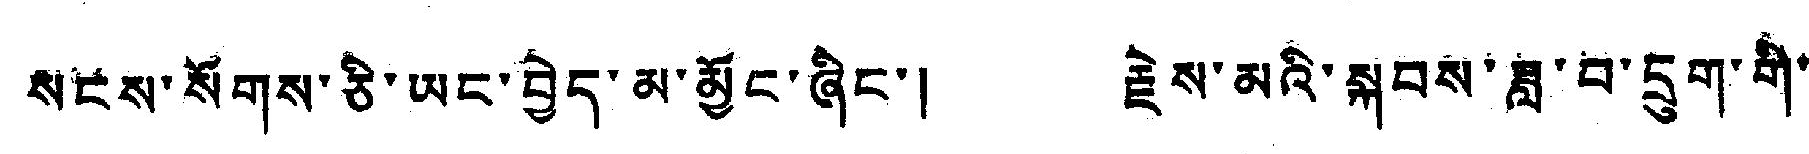སངས་སོགས་ཅི་ཡང་བྱེད་མ་མྱོང་ཞིང་། རྗེས་མའི་སྐབས་ཟླ་བ་དྲུག་གི་
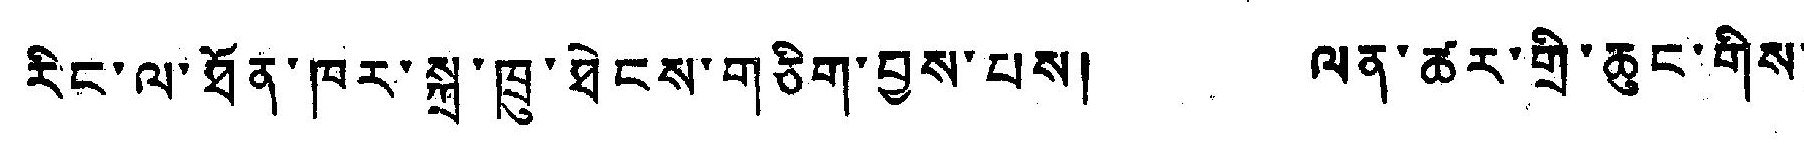རིང་ལ་ཐོན་ཁར་སྐྲ་ཁྲུ་ཐེངས་གཅིག་བྱས་པས། ལན་ཚར་གྱི་ཆུང་གིས་
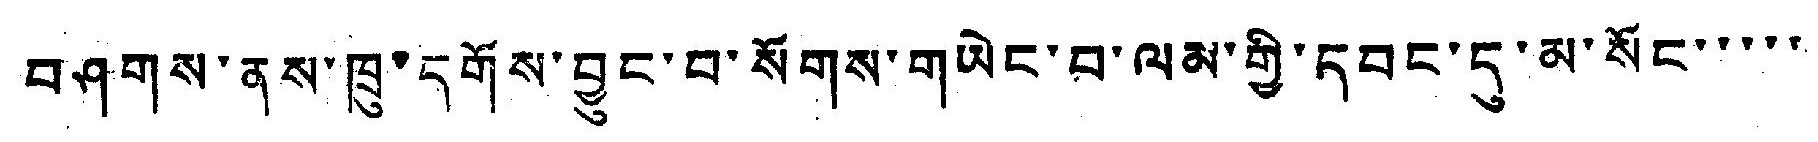བཤགས་ནས་ཁྲུ་དགོས་བྱུང་བ་སོགས་གཡེང་བ་ལམ་གྱི་དབང་དུ་མ་སོང་་་་་
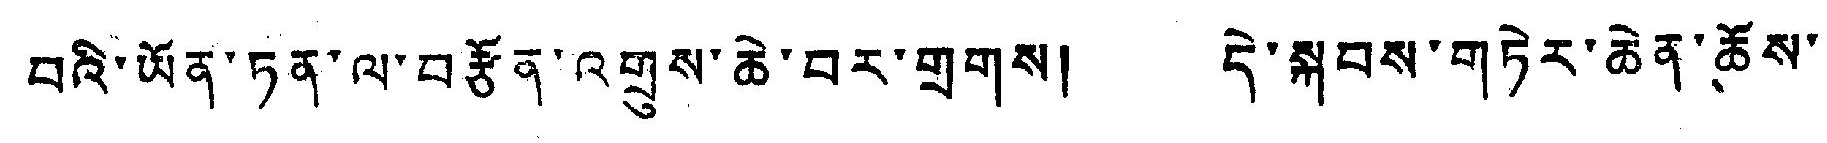བའི་ཡོན་ཏན་ལ་བརྩོན་འགྲུས་ཆེ་བར་གྲགས། དེ་སྐབས་གཏེར་ཆེན་ཆོས་
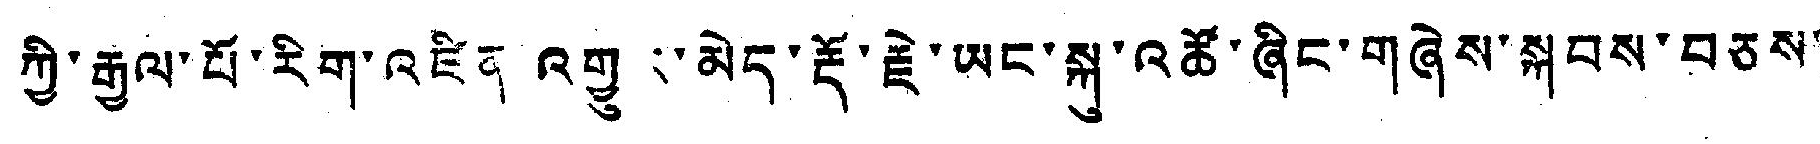ཀྱི་རྒྱལ་པོ་རིག་འཛིན་འགྱུར་མེད་རྡོ་རྗེ་ཡང་སྐུ་འཚོ་ཞིང་གཞེས་སྐབས་བཅས་
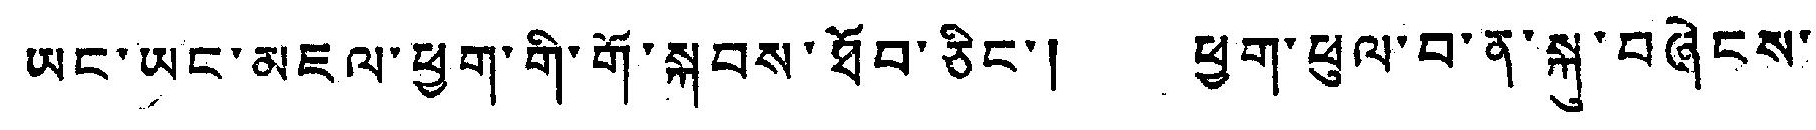ཡང་ཡང་མཇལ་ཕྱག་གི་གོ་སྐབས་ཐོབ་ཅིང་། ཕྱག་ཕུལ་བ་ན་སྐུ་བཞེངས་
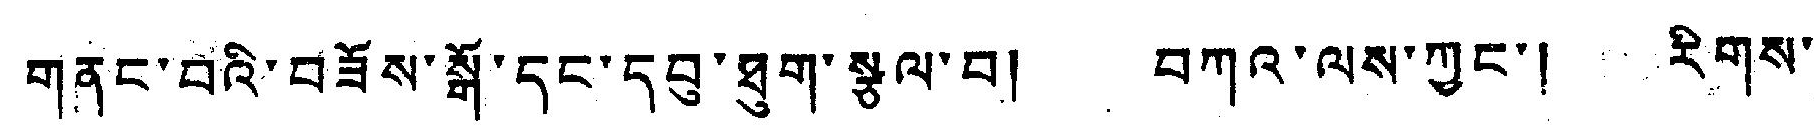གནང་བའི་བཟོས་སྒོ་དང་དབུ་ཐུག་སྩལ་བ། བཀའ་ལས་ཀྱང་། རིགས་
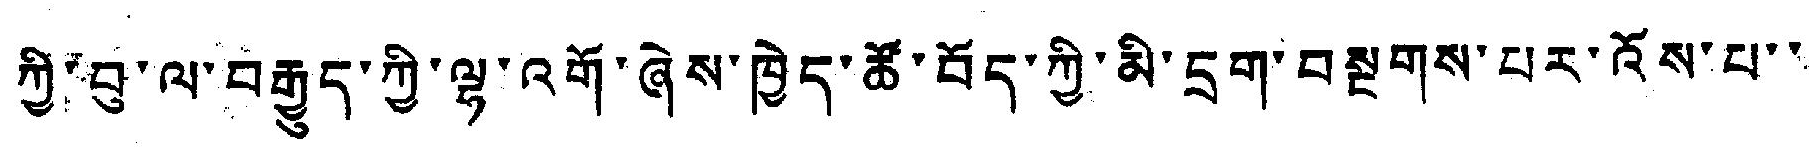ཀྱི་བུ་ལ་བརྒྱུད་ཀྱི་ལྷ་འགོ་ཞེས་ཁྱེད་ཚོ་བོད་ཀྱི་མི་དྲག་བསྔགས་པར་འོས་པ་་
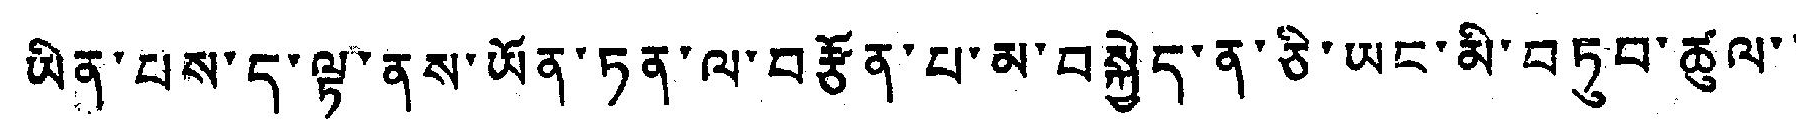ཡིན་པས་ད་ལྟ་ནས་ཡོན་ཏན་ལ་བརྩོན་པ་མ་བསྐྱེད་ན་ཅི་ཡང་མི་བཏུབ་ཚུལ་་
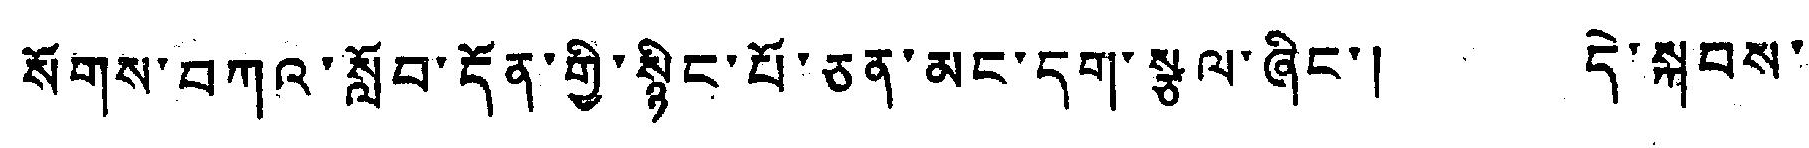སོགས་བཀའ་སློབ་དོན་གྱི་སྙིང་པོ་ཅན་མང་དག་སྩལ་ཞིང་། དེ་སྐབས་་
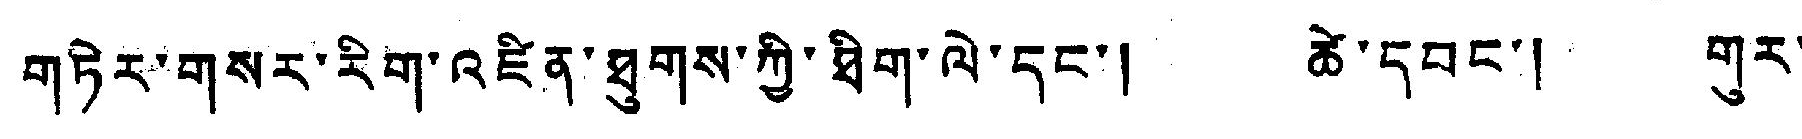གཏིར་གསར་རིག་འཛིན་ཐུགས་ཀྱི་ཐིག་ལེ་དང་། ཚེ་དབང་། གུར་
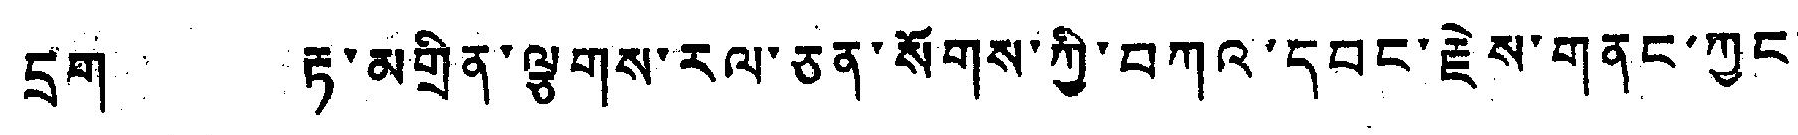དྲག རྟ་མགྲིན་ལྕགས་རལ་ཅན་སོགས་ཀྱི་བཀའ་དབང་རྗེས་གནང་ཀྱང་
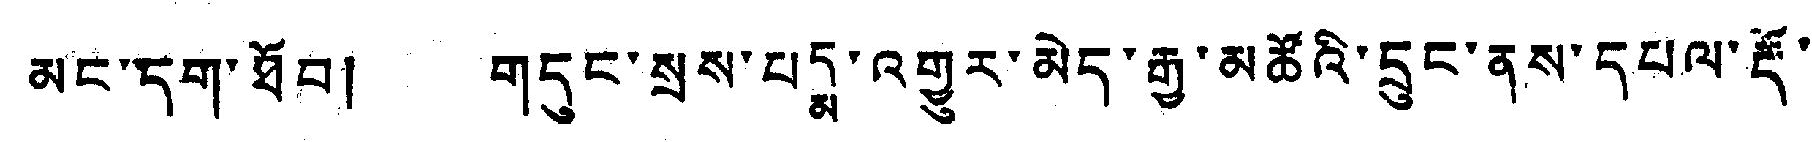མང་དག་ཐོབ། གདུང་སྲས་པདྨ་འགྱུར་མེད་རྒྱུ་མཚོའི་དྲུང་ནས་དཔལ་རྡོ་
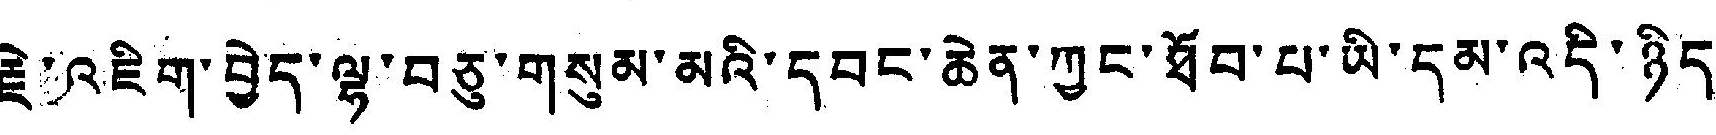རྗེ་འཇིག་བྱེད་ལྷ་བཅུ་གསུམ་མའི་དབང་ཆེན་ཀྱང་ཐོབ་པ་ཡི་དམ་འདི་ཉིད་་
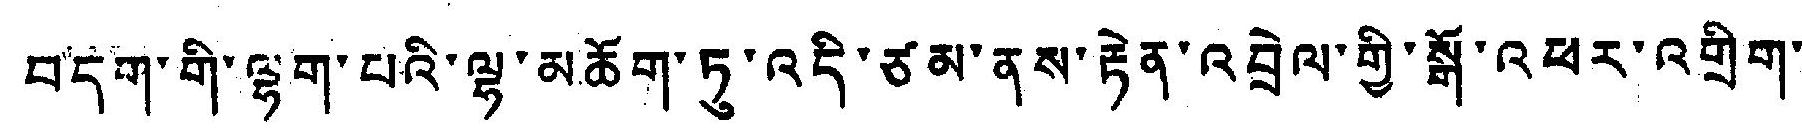བདག་གི་ལྷག་པའི་ལྷ་མཆོག་ཏུ་འདི་ཙམ་ནས་རྟེན་འབྲེལ་གྱི་སྒོ་འཕར་འགྲིག་
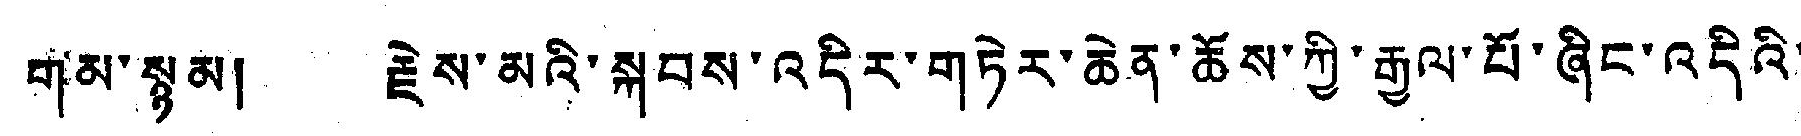གམ་སྙམ། རྗེས་མའི་སྐབས་འདིར་གཏེར་ཆེན་ཆོས་ཀྱི་རྒྱལ་པོ་ཞིང་འདིའི་
